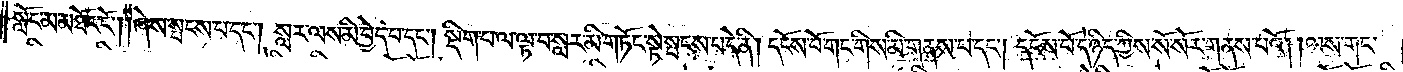སློང་མ་མཐོང་ངོ༌། །ཞེས་སྤངས་པ་དང༌། སླར་ལས་མི་བྱེད་པ་དང༌། སྡིག་པ་ལ་ལྟ་བ་སླར་མི་གཏོང་སྟེ་སྤངས་པ་དེ་ནི། དངོས་པོ་གང་གིས་མི་གནས་པ་དང༌། དངོས་པོ་དེ་ཉིད་ཀྱིས་སོ་སོར་གནས་པའོ། །ལས་གང་
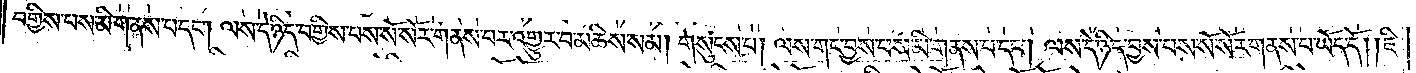བགྱིས་པས་མི་གནས་པ་དང༌། ལས་དེ་ཉིད་བགྱིས་པས་སོ་སོར་གནས་པར་འགྱུར་བ་མཆིས་སམ། གསུངས་པ། ལས་གང་བྱས་པས་མི་གནས་པ་དང༌། ལས་དེ་ཉིད་བྱས་པས་སོ་སོར་གནས་པ་ཡོད་དོ། །ཇི་
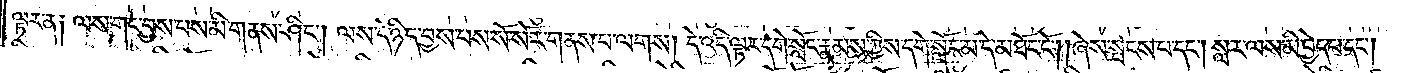ལྟར་ན༑ ལས་གང་བྱས་པས་མི་གནས་ཤིང༌། ལས་དེ་ཉིད་བྱས་པས་སོ་སོར་གནས་པ་ལགས། དེ་འདི་ལྟར་དགེ་སློང་རྣམས་ཀྱིས་དགེ་སློང་མ་དེ་མཐོང་ངོ༌། །ཞེས་སྤངས་པ་དང༌། སླར་ལས་མི་བྱེད་པ་དང༌།
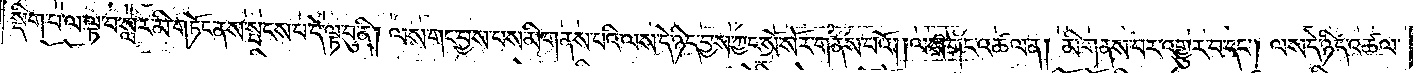སྡིག་པ་ལ་ལྟ་བ་སླར་མི་གཏོང་ནས་སྤངས་པ་དེ་ལྟ་བུ་ནི། ལས་གང་བྱས་པས་མི་གནས་པའི་ལས་དེ་ཉིད་བྱས་ཀྱང་སོ་སོར་གནས་པའོ། །ལས་གང་འཚལ་ན། མི་གནས་པར་འགྱུར་པ་དང༌། ལས་དེ་ཉིད་འཚལ་
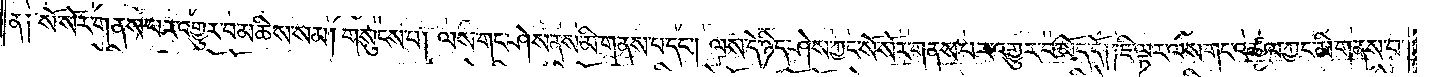ན༑ སོ་སོར་གནས་པར་འགྱུར་བ་མཆིས་སམ། གསུངས་པ། ལས་གང་ཤེས་ནས་མི་གནས་པ་དང༌། ལས་དེ་ཉིད་ཤེས་ཀྱང་སོ་སོར་གནས་པར་འགྱུར་བ་ཡོད་དོ། །ཇི་ལྟར་ལས་གང་འཚལ་ཀྱང་མི་གནས་པ་
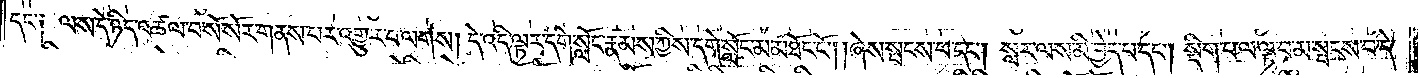དང་༑ ལས་དེ་ཉིད་འཚལ་བ་སོ་སོར་གནས་པར་འགྱུར་བ་ལགས། དེ་འདི་ལྟར་དགེ་སློང་རྣམས་ཀྱིས་དགེ་སློང་མ་མཐོང་ངོ༌། །ཞེས་སྤངས་པ་དང༌། སླར་ལས་མི་བྱེད་པ་དང༌། སྡིག་པ་ལ་ལྟ་བ་མ་སྤངས་པ་དེ་
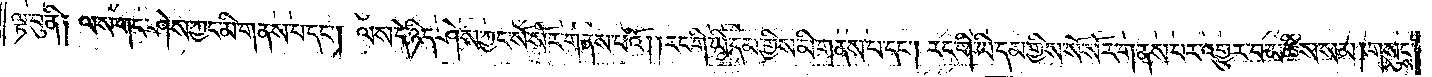ལྟ་བུ་ནི༑ ལས་གང་ཤེས་ཀྱང་མི་གནས་པ་དང༌། ལས་དེ་ཉིད་ཤེས་ཀྱང་སོ་སོར་གནས་པའོ། །རང་གི་ཡི་དམ་གྱིས་མི་གནས་པ་དང༌། རང་གི་ཡི་དམ་གྱིས་སོ་སོར་གནས་པར་འགྱུར་བ་མཆིས་སམ། གསུངས་
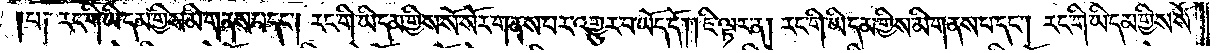པ༑ རང་གི་ཡི་དམ་གྱིས་མི་གནས་པ་དང༌། རང་གི་ཡི་དམ་གྱིས་སོ་སོར་གནས་པར་འགྱུར་བ་ཡོད་དོ། །ཇི་ལྟར་ན། རང་གི་ཡི་དམ་གྱིས་མི་གནས་པ་དང༌། རང་གི་ཡི་དམ་གྱིས་སོ་
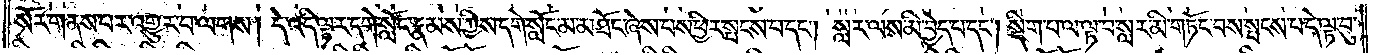སོར་གནས་པར་འགྱུར་བ་ལགས། དེ་འདི་ལྟར་དགེ་སློང་རྣམས་ཀྱིས་དགེ་སློང་མ་མཐོང་ཞེས་པས་ཕྱིར་སྤངས་པ་དང༌། སླར་ལས་མི་བྱེད་པ་དང༌། སྡིག་པ་ལ་ལྟ་བ་སླར་མི་གཏོང་བས་སྤངས་པ་དེ་ལྟ་བུ་
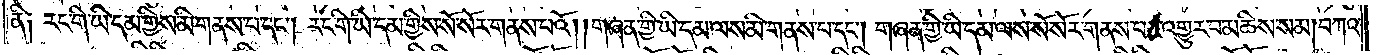ནི༑ རང་གི་ཡི་དམ་གྱིས་མི་གནས་པ་དང༌། རང་གི་ཡི་དམ་གྱིས་སོ་སོར་གནས་པའོ། །གཞན་གྱི་ཡི་དམ་ལས་མི་གནས་པ་དང༌། གཞན་གྱི་ཡི་དམ་ལས་སོ་སོར་གནས་པར་འགྱུར་བ་མཆིས་སམ། བཀའ་
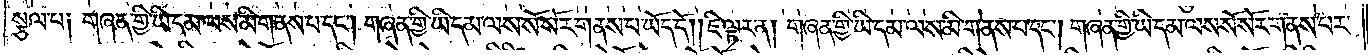སྩལ་པ༑ གཞན་གྱི་ཡི་དམ་ལས་མི་གནས་པ་དང༌། གཞན་གྱི་ཡི་དམ་ལས་སོ་སོར་གནས་པ་ཡོད་དོ། །ཇི་ལྟར་ན། གཞན་གྱི་ཡི་དམ་ལས་མི་གནས་པ་དང༌། གཞན་གྱི་ཡི་དམ་ལས་སོ་སོར་གནས་པར་
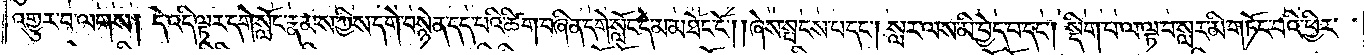འགྱུར་བ་ལགས། དེ་འདི་ལྟར་དགེ་སློང་རྣམས་ཀྱིས་དགེ་བསྙེན་དད་པའི་ཚིག་བཞིན་དགེ་སློང་དེ་མ་མཐོང་ངོ༌། །ཞེས་སྤངས་པ་དང༌། སླར་ལས་མི་བྱེད་པ་དང༌། སྡིག་པ་ལ་ལྟ་བ་སླར་མི་གཏོང་བའི་ཕྱིར་
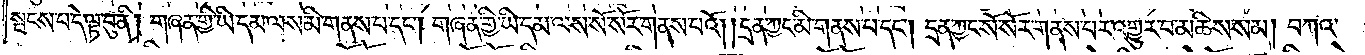སྤངས་པ་དེ་ལྟ་བུ་ནི། གཞན་གྱི་ཡི་དམ་ལས་མི་གནས་པ་དང༌། གཞན་གྱི་ཡི་དམ་ལས་སོ་སོར་གནས་པའོ། །དྲན་ཀྱང་མི་གནས་པ་དང༌། དྲན་ཀྱང་སོ་སོར་གནས་པར་འགྱུར་བ་མཆིས་སམ། བཀའ་
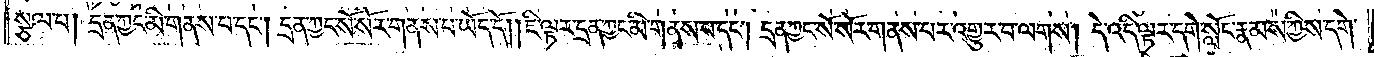སྩལ་པ། དྲན་ཀྱང་མི་གནས་པ་དང༌། དྲན་ཀྱང་སོ་སོར་གནས་པ་ཡོད་དོ། །ཇི་ལྟར་དྲན་ཀྱང་མི་གནས་པ་དང༌། དྲན་ཀྱང་སོ་སོར་གནས་པར་འགྱུར་བ་ལགས། དེ་འདི་ལྟར་དགེ་སློང་རྣམས་ཀྱིས་དགེ་
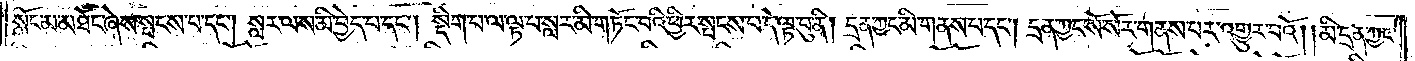སློང་མ་མཐོང་ཞེས་སྤངས་པ་དང༌། སླར་ལས་མི་བྱེད་པ་དང༌། སྡིག་པ་ལ་ལྟ་པ་སླར་མི་གཏོང་བའི་ཕྱིར་སྤངས་པ་དེ་ལྟ་བུ་ནི། དྲན་ཀྱང་མི་གནས་པ་དང༌། དྲན་ཀྱང་སོ་སོར་གནས་པར་འགྱུར་བའོ། །མི་དྲན་ཀྱང་
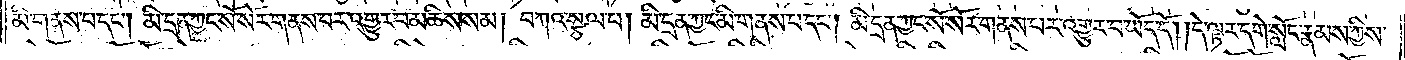མི་གནས་པ་དང༌། མི་དྲན་ཀྱང་སོ་སོར་གནས་པར་འགྱུར་བ་མཆིས་སམ། བཀའ་སྩལ་པ། མི་དྲན་ཀྱང་མི་གནས་པ་དང༌། མི་དྲན་ཀྱང་སོ་སོར་གནས་པར་འགྱུར་བ་ཡོད་དོ། །དེ་ལྟར་དགེ་སློང་རྣམས་ཀྱིས་
